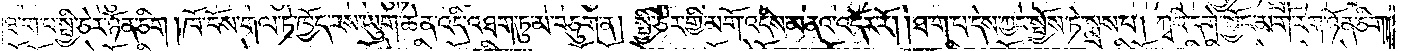ཐ་ག་པ་སྤྱི་ཅེར་ཉོན་ཅིག །ཁོ་བོས་གལ་ཏེ་ཁྱོད་རས་ཡུག་ཆེན་འདི་འཐག་ཏུ་མ་བཅུག་ན། སྤྱི་ཅེར་གྱི་མགོ་འདིས་མནའ་འདོར་རོ། །ཐ་ག་པ་དེས་ཀྱང་སྤྱོས་ཏེ་སྨྲས་པ། ཀྭའི་དགེ་སྦྱོང་མགོ་རེག་ཉོན་ཅིག།
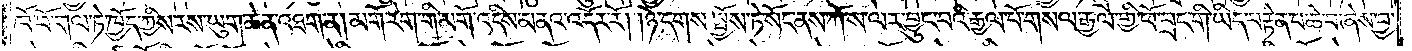ཁོ་བོ་གལ་ཏེ་ཁྱོད་ཀྱིས་རས་ཡུག་ཆེན་འཐག་ན། མགོ་རེག་གི་མགོ་འདིས་མནའ་འདོར་རོ། །ཉེ་དགས་སྤྱོས་ཏེ་སོང་ནས་ཀོ་ས་ལར་བྱུང་བའི་རྒྱལ་པོ་གསལ་རྒྱལ་གྱི་ཕོ་བྲང་གི་ཡིད་བརྟེན་པ་ཆེ་བ་ཞེས་བྱ་
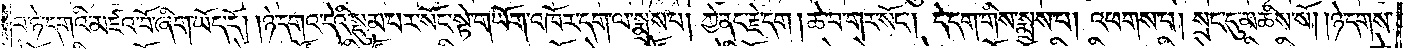བ་ཉེ་དགའི་མཛའ་བོ་ཞིག་ཡོད་དོ། །ཉེ་དགའ་དེའི་སྡུམ་པར་སོང་སྟེ་གཡོག་འཁོར་དག་ལ་སྨྲས་པ། ཀྱེ་ནང་ཇེ་དག །ཆེ་བ་གར་སོང༌། དེ་དག་གིས་སྨྲས་པ། འཕགས་པ། སྲང་དུ་མཆིས་སོ། །ཉེ་དགས་
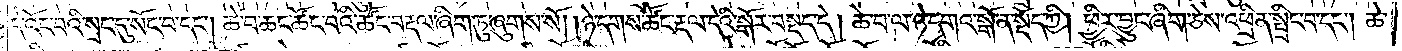དེ་འོང་བའི་སྲང་དུ་སོང་བ་དང༌། ཆེ་བ་ཆང་ཚོང་བའི་ཚོང་བརྡལ་ཞིག་ཏུ་ཞུགས་སོ། །ཉེ་དགས་ཚོང་རྡལ་དེའི་སྒོར་བསྡད་དེ། ཆེ་བ་ལ་ཉེ་དགའ་སྒོ་ན་སྡོད་ཀྱི། ཕྱིར་བྱུང་ཞིག་ཅེས་འཕྲིན་སྤྲིང་བ་དང༌། ཆེ་
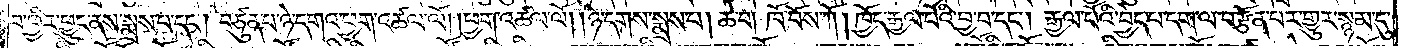བ་ཕྱིར་ཕྱུང་ནས་སྨྲས་པ་དང༌། བཙུན་པ་ཉེ་དགའ་ཕྱག་འཚལ་ལོ། །ཕྱག་འཚལ་ལོ། །ཉེ་དགས་སྨྲས་པ། ཆེ་བ། ཁོ་བོས་ཀོ །ཁྱོད་རྒྱལ་པོའི་བྱ་བ་དང༌། རྒྱལ་པོའི་བྱེད་པ་དག་ལ་བརྩོན་པར་གྱུར་སྙམ་དུ་
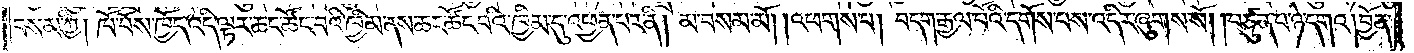བསམ་ཀྱི། ཁོ་བོས་ཁྱོད་འདི་ལྟར་ཆང་ཚོང་བའི་ཁྱིམ་ནས་ཆང་ཚོང་བའི་ཁྱིམ་དུ་འཕྱན་པར་ནི། མ་བསམ་མོ། །འཕགས་པ། བདག་རྒྱལ་པོའི་དགོས་པས་འདིར་ཞུགས་སོ། །བཙུན་པ་ཉེ་དགའ། བྱོན་
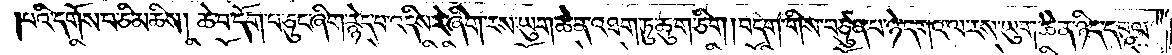པའི་དགོས་པ་ཅི་མཆིས། ཆེ་བ་དོག་པ་ཅུང་ཞིག་རྙེད་པ་འདིས་རེ་ཞིག་རས་ཡུག་ཆེན་འཐག་ཏུ་ཆུག་ཅིག །བདག་གིས་བཙུན་པ་ཉེ་དགའ་ལ་རས་ཡུག་ཆེན་ཉིད་དབུལ་
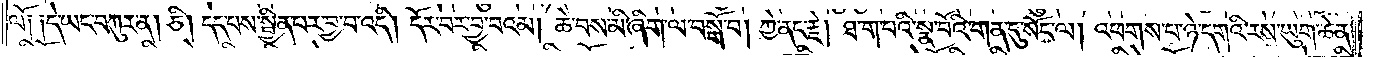ལོ༑ ༑དེ་ཡང་བཀུར་ན། ཅི། དད་པས་སྦྱིན་པར་བྱ་བ་འདི། དོར་བར་བྱ་བའམ། ཆེ་བས་མི་ཞིག་ལ་བསྒོ་བ། ཀྱེ་ནང་རྗེ། ཐ་ག་པའི་སྣ་བོའི་གན་དུ་སོང་ལ། འཕགས་པ་ཉེ་དགའི་རས་ཡུག་ཆེན་
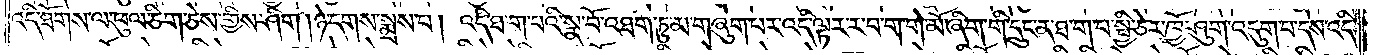འདི་ཐོགས་ལ་ཕུལ་ཅིག་ཅེས་གྱིས་ཤིག །ཉེ་དགས་སྨྲས་པ། འདི་ཐ་ག་པའི་སྣ་བོ་འཐག་ཏུ་མ་གཞུག་པར་འདི་ལྟར་ར་བ་ག་གེ་མོ་ཞིག་གི་དྲུང་ན་ཐ་ག་པ་སྤྱི་ཅེར་ཁྱོ་ཤུག་འདུག་པ་དེས་འདི་
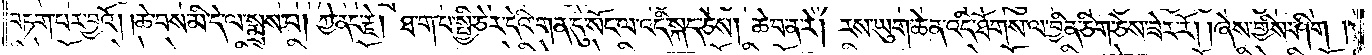བཏག་པར་བྱའོ། །ཆེ་བས་མི་དེ་ལ་སྨྲས་པ། ཀྱེ་ནང་རྗེ། ཐ་ག་པ་སྤྱི་ཅེར་དེའི་གན་དུ་སོང་ལ་འདི་སྐད་ཅེས། ཆེ་བ་ན་རེ། རས་ཡུག་ཆེན་འདི་ཐོགས་ལ་བྱིན་ཅིག་ཅེས་ཟེར་རོ། །ཞེས་གྱིས་ཤིག།
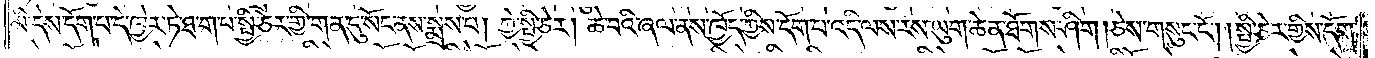མི་དེས་དོག་པ་དེ་ཁྱེར་ཏེ་ཐ་ག་པ་སྤྱི་ཅེར་གྱི་གན་དུ་སོང་ནས་སྨྲས་པ། ཀྱེ་སྤྱི་ཅེར། ཆེ་བའི་ཞལ་ནས་ཁྱོད་ཀྱིས་དོག་པ་འདི་ལས་རས་ཡུག་ཆེན་ཐོགས་ཤིག །ཅེས་གསུང་ངོ༌། །སྤྱི་ཅེར་གྱིས་དོག་
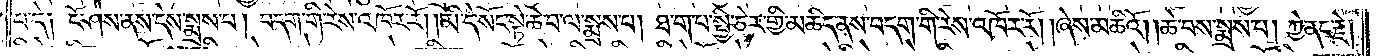པ་དེ། ངོ་ཤེས་ནས་དེས་སྨྲས་པ། བདག་གི་རེས་འཁོར་རོ། །མི་དེ་སོང་སྟེ་ཆེ་བ་ལ་སྨྲས་པ། ཐ་ག་པ་སྤྱི་ཅེར་གྱི་མཆིད་ནས་བདག་གི་རེས་འཁོར་རོ། །ཞེས་མཆིའོ། །ཆེ་བས་སྨྲས་པ། ཀྱེ་ནང་རྗེ།
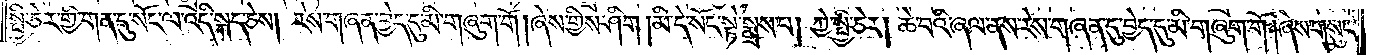སྤྱི་ཅེར་གྱི་གན་དུ་སོང་ལ་འདི་སྐད་ཅེས། རེས་གཞན་བྱེད་དུ་མི་གཞུག་གོ། ཞེས་གྱིས་ཤིག །མི་དེ་སོང་སྟེ་སྨྲས་པ། ཀྱེ་སྤྱི་ཅེར། ཆེ་བའི་ཞལ་ནས་རེས་གཞན་དུ་བྱེད་དུ་མི་གཞུག་གོ། །ཞེས་གསུང་
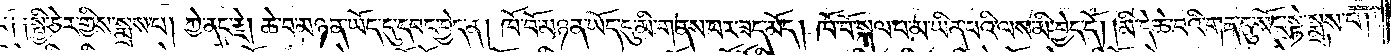ངོ༑ ༑སྤྱི་ཅེར་གྱིས་སྨྲས་པ། ཀྱེ་ནང་རྗེ། ཆེ་བ་མཉན་ཡོད་དུ་དབང་བྱེད་ན། ཁོ་བོ་མཉན་ཡོད་དུ་མི་གནས་པར་ཟད་མོད། ཁོ་བོ་སྐལ་བ་མ་ཡིན་པའི་ལས་མི་བྱེད་དོ། །མི་དེ་ཆེ་བའི་གན་དུ་སོང་སྟེ་སྨྲས་པ།
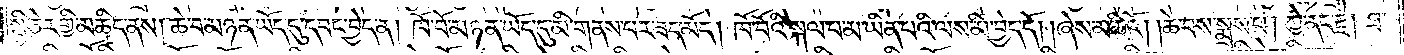སྤྱི་ཅེར་གྱི་མཆིད་ནས། ཆེ་བ་མཉན་ཡོད་དུ་དབང་བྱེད་ན། ཁོ་བོ་མཉན་ཡོད་དུ་མི་གནས་པར་ཟད་མོད། ཁོ་བོའི་སྐལ་པ་མ་ཡིན་པའི་ལས་མི་བྱེད་དོ། །ཞེས་མཆིའོ། །ཆེ་བས་སྨྲས་པ། ཀྱེ་ནང་རྗེ། ཐ་
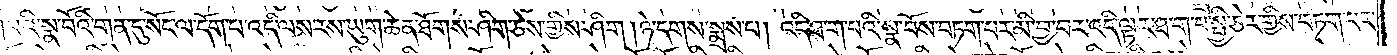ག་པའི་སྣ་བོའི་གན་དུ་སོང་ལ་དོག་པ་འདི་ལས་རས་ཡུག་ཆེན་ཐོགས་ཤིག་ཅེས་གྱིས་ཤིག །ཉེ་དགས་སྨྲས་པ། འདི་ཐ་ག་པའི་སྣ་བོས་བཏག་པར་མི་བྱ་བར་འདི་ལྟར་ཐ་ག་པ་སྤྱི་ཅེར་གྱིས་བཏག་པར་
